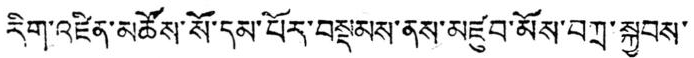རིག་འཛིན་མཚོས་སོ་དམ་པོར་བསྡམས་ནས་མཛུབ་མོས་བཀྲ་སྐྱབས་
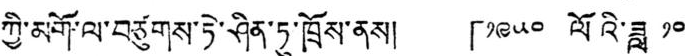ཀྱི་མགོ་ལ་བཙུགས་ཏེ་ཤིན་ཏུ་ཁྲོས་ནས། 「༡༩༥༠ ལོའི་ཟླ ༡༠
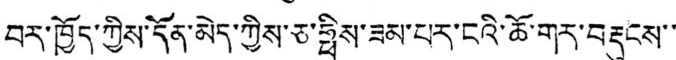བར་ཁྱོད་ཀྱིས་དོན་མེད་ཀྱིས་ཅ་ཧྥིས་ཟམ་པར་ངའི་ཆོ་གར་བརྡུངས་་་
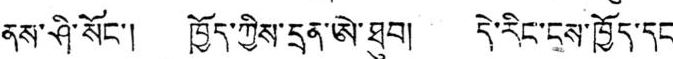ནས་ཤི་སོང་། ཁྱོད་ཀྱིས་དྲན་ཨེ་ཐུབ། དེ་རིང་ངས་ཁྱོད་དང་
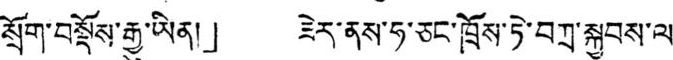སྲོག་བསྡོས་རྒྱུ་ཡིན།」 ཟེར་ནས་ཧ་ཅང་ཁྲོས་ཏེ་བཀྲ་སྐྱབས་ལ་
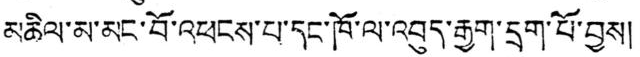མཆིལ་མ་མང་བོ་འཕངས་པ་དང་ཁོ་ལ་འབུད་རྒྱག་དྲག་པོ་བྱས།
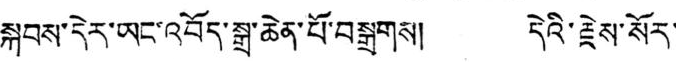སྐབས་དེར་ཡང་འབོད་སྒྲ་ཆེན་པོ་བསྒྲགས། དེའི་རྗེས་སོར་
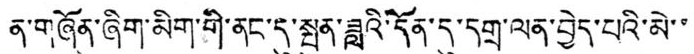ན་གཞོན་ཞིག་མིག་གི་ནང་དུ་སྤུན་ཟླའི་དོན་དུ་དགྲ་ལན་བྱེད་པའི་མི་་
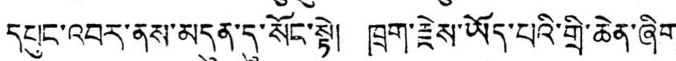དཔུང་འབར་ནས་མདུན་དུ་སོང་སྟེ། ཁྲག་རྗེས་ཡོད་པའི་གྲི་ཆེན་ཞིག་
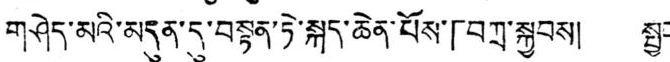གཤེད་མའི་མདུན་དུ་བསྟན་ཏེ་སྐད་ཆེན་པོས་「བཀྲ་སྐྱབས། སྤྱང་
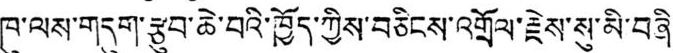ཁུ་ལས་གདུག་རྩུབ་ཆེ་བའི་ཁྱོད་ཀྱིས་བཅིངས་འགྲོལ་རྗེས་སུ་མི་བཞི་
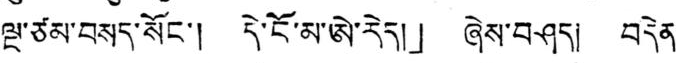ལྔ་ཙམ་བསད་སོང་། དེ་ངོ་མ་ཨེ་རེད།」 ཞེས་བཤད། བདེན་
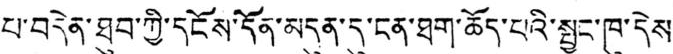པ་བདེན་ཐུབ་ཀྱི་དངོས་དོན་མདུན་དུ་ངན་ཐག་ཆོད་པའི་སྤྱང་ཁུ་དེས་
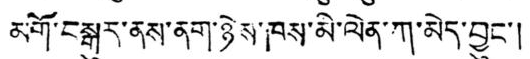མགོ་བསྒུར་ནས་ནག་ཉེས་ཁས་མི་ལེན་ཀ་མེད་བྱུང་།
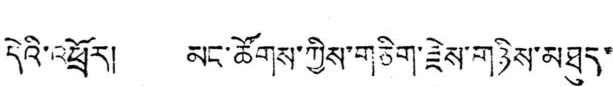དེའི་འཕྲོར། མང་ཚོགས་ཀྱིས་གཅིག་རྗེས་གཉིས་མཐུད་
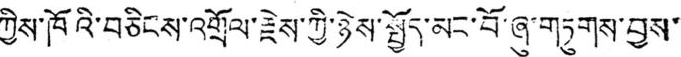ཀྱིས་ཁོའི་བཅིངས་འགྲོལ་རྗེས་ཀྱི་ཉེས་སྤྱོད་མང་བོ་ཞུ་གཏུགས་བྱས་
